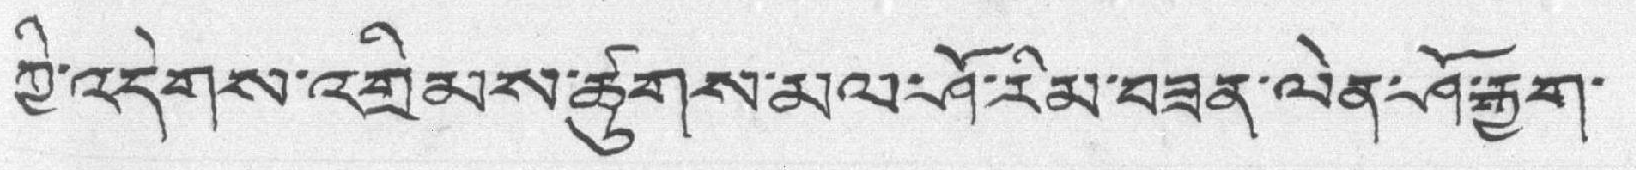ཀྱི་འདེགས་འགྲིམས་ཚུགས་མལ་ཤོ་རིམ་བཟན་ལེན་ཤོ་རྒྱག་
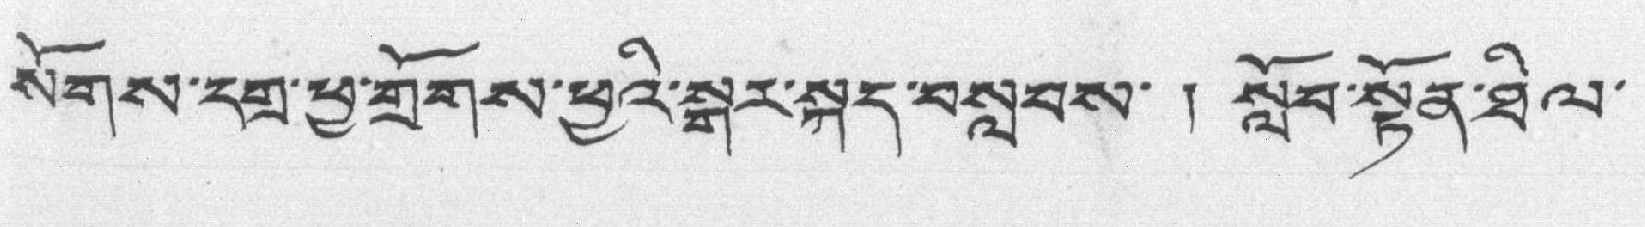སོགས་དགྲ་ཕྱ་གྲོགས་ཕྱའི་སྒར་སྐད་བསླབས་ ། སློབ་སྟོན་ཐིལ་
